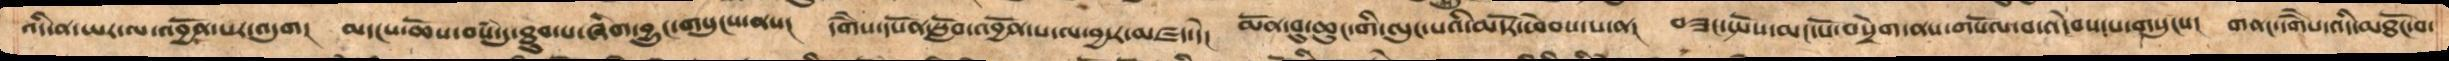འདི་ན་ཡར་ལ་འབྱོན་པར་འདུག།  མདངས་ཆོས་བསཾ་དུ་ཐུབ་པ་ཞིག་བྱུང་གསུངས་ནས།  དགཻས་དཔོན་སློབ་འབྱོན་པ་ལ་བྱ་ར་མཛད་དེ།   མོན་བུ་ཆུང་གི་ལུང་པའི་མདོར་ཕེབས་པ་ན།  བཟང་སྤོས་མང་པོ་བསྲེག་ནས་གསོལ་བ་འདེབས་པ་གསུངས། གནང་དགཻས་འདི་མཐོང་བ་
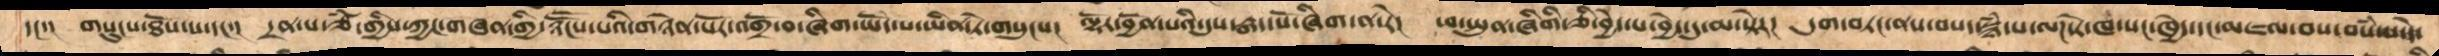དང་།  གསུངས་ཐོས་པ་དང་།  དྲན་པ་ཙཾ་གྱིས་ཀྱང་གཞན་གྱི་ཉཽངས་པའི་གཉེན་པོར་འགྲོ་བ་ཞིག་ཡོད་པ་ཡིན་ཏེ་གསུངས།   ལྷོར་བྱོན་པའི་དུས་རྒན་པོ་ཞིག་ན་རེ།  ཕ་སྤུན་ཞིགི་ཅི་བྱེད་པ་བྱེད་དུ་མ་སྟེར།  དུག་བཏང་ནས་བསད་སྙཾ་པ་ལཌ་ཏེ་ཁ་སང་ཁྱེད་དང་མཇལ་བས་བསཾ་པ་དེ་
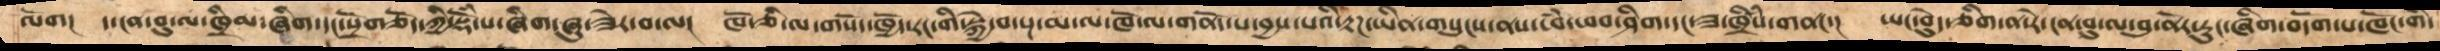ལོག།  ད་ངན་བུ་ལ་ཁྲིམ་ཞིག་དང་སྲོགཅོད་ཀྱི་སྡོཾ་པ་ཞིག་ཞུ་ཟེར་བ་ལ།  ཁོ་ཅི་ལ་གསོད་ཁྱོད་རང་གི་སྐྱེ་བ་སྔ་མ་ལ་ཁོ་ལ་གནོད་པ་བྱས་པའི་རྟཌ་ཡིན་གསུངས་ནས་ཕཾ་ཕབ་ཤིག་དང་ཟ་ཁྲིསཾ་གནང་།  ཡང་བེུད་ཅིག་ན་རེ་ངན་བུ་ལ་བུ་ནོར་རུང་ཞིག་བདོག་པ་ཁོང་གི་
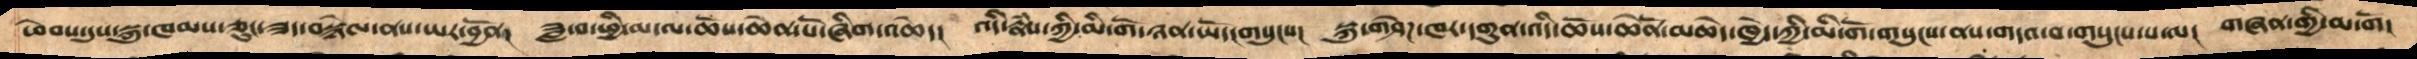ཕེབས་དུས་སྐུ་ཁམས་ཅུང་ཟད་བསྙེལ་ནས་ཡར་བྱོན།   ཟླ་བ་ཕྱི་མ་ལ་ཆོས་ཆེན་པོ་ཞིག་འཆེད།  འདི་རྣཾས་ཀྱི་མི་གོ་ཉན་ཡོད་གསུངས།  སྐུ་གཤེཌ་ཁར་དགུན་འདི་ཆོས་ཆེནོ་མཆེད་ཁྱེད་ཀྱི་མི་གོ་གསུངས་ནས་གདའ་བ་གསུངས་པ་ལ།  གཞན་གྱི་མ་གོ་
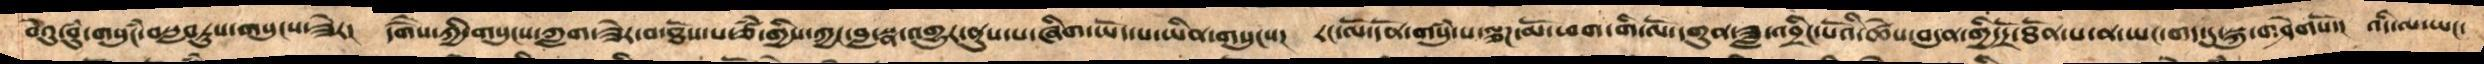བེའུ་བུཾ་གསུངཾབསླབཏུས་གསུངས་ཟེར།  དགཻས་ཀྱིས་གསུང་ཀླག་ཟེར་བ་ཐོས་པ་ཙཾ་གྱིས་ཀྱང་བླ་སྣ་འགྱུར་ནུས་པ་ཞིག་ཡོད་པ་ཡིན་གསུངས། རང་ལོ་དོན་གསུཾ་པ་ལྕཌ་མོ་ཕག་གི་ལོ་དགུན་ཟླ་འབྲིང་པོའི་ཚེས་བདུན་གྱི་དྲོ་ཐོན་པ་ན་ཡང་གད་དུ་སྐུ་གཤེགསོ།  འདི་ལ་ཡང་
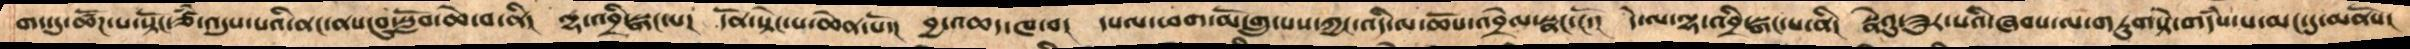གང་དུ་ཚོཌ་པ་སྟོང་ཙཾ་འདུས་པའི་ནང་ནས་བུ་སློབ་ཆེ་བ་ནི།  ལྷ་འབྲི་སྒང་པ།  དོན་སྟོང་པ་ཆེན་པོ་།  བྱ་འཆད་ཁ་བ།  དཔལ་ཕག་མོ་གྲུ་པས་ཀྱང་འདི་ལ་ཆོས་འབྲེལ་སྣང་ངོ་།  དེ་ལ་ལྷ་འབྲི་སྒང་པ་ནི།  སྣེའུ་ཟུར་པའི་ཞབས་ལ་གཏུགསྟེ་གདཾས་པ་མང་དུ་མནོས།
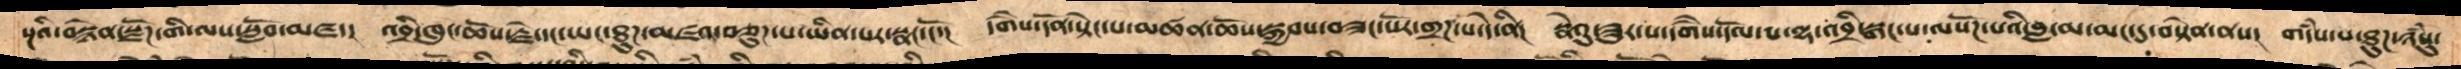སྔའི་བསྙེན་སྫོཌ་གི་ལས་སློབ་མཛད།  འབྲི་ཁུང་ཆོས་རྗེ་དང་ཡང་ཐུཌ་མཛའ་བཅུཌ་པ་ཡིན་པར་སྣང་ངོ་།  དགཻས་དོན་སྟེང་པ་མཚན་ཆོས་སྐྱབས་བཟང་པོར་གྲཌ་པ་དེ་ནི།  སྣེའུ་ཟུར་པ་དགཻས་དོལ་པ་ལྷ་འབྲི་སྒང་པ་ལསོཌ་པའི་བླ་མ་མང་དུ་བསྟེན་ནས།  གདཾས་པ་ཐུཌ་ཉཾསུ་
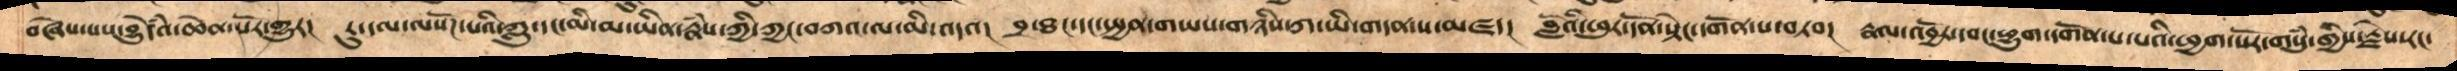བཞེས་པས་བྱུདེཾའ་ཆེན་པོར་གྱུར།  རུ་དལ་ལསོཌ་པའི་ཀླུ་དང་མི་མ་ཡིན་རྣཾས་ཀྱི་ཀྱང་བཀའ་ལས་མི་འདའ།  བྲ་ཐང་དང་སྤྱན་གཡས་གཉིས་ཀ་ཡི་གདན་ས་མཛད།  བློའི་ཕུར་དོན་སྟེང་གི་དགོན་པ་བཏབ།  རྣལ་འབྱོར་གྱི་དབང་ཕྱུག་དགོན་པ་པའི་ཕྱག་སོར་གསུཾ་གྱིས་རྗེས་རང་
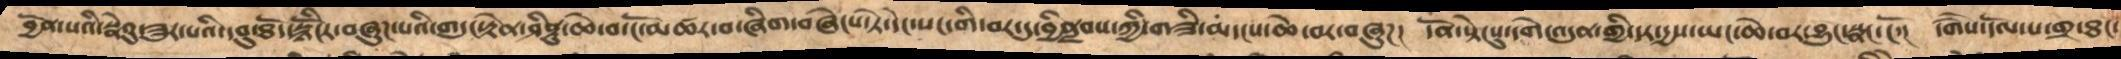བྱོན་པའི་སྣེའུ་ཟུར་པའི་དབུ་ཐོད་སྙོངེར་བཞུཌ་བའི་གདུང་རྟེན་ཤིནྟུ་ཆེ་བ་ངོ་མཚར་བ་ཞིག་བཞེངས་ཏེ་དེང་སང་གི་བར་དུ་བྱིནླབས་ཀྱི་གཟི་མདངས་ཆེ་བར་བཞུཌ།  དོན་སྟེང་དུ་དགེ་འདུན་གྱི་དར་དྱས་ཡང་ཆེ་བར་བྱུང་སྣང་ངོ་།  དགཻས་དོལ་པ་གྲ་ཐང་
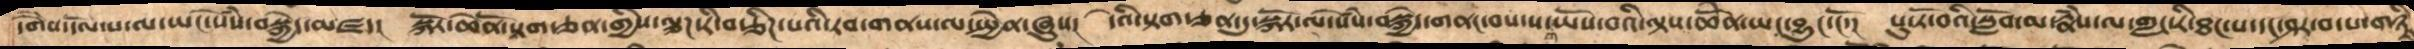དགཻས་དོལ་པ་ལ་ཡང་སེཾས་བསྐྱེད་མཛད།  སྐོར་ཆེོན་སྟག་ཅན་གྱི་ལྕཌ་རི་བརྩིཌ་པའི་རབ་གནས་ལ་སྤྱེན་ཞུས།  དེའི་སྟག་ཅན་དུ་སྐོར་ལ་སེཾས་བསྐྱེད་གནང་བས་ས་གཡོས་བའི་ལྟས་ཆེནོ་ཡང་བྱུང་ངོ་།  པུ་ཏོ་བའི་སློབ་མ་རྣཾས་ལ་གླང་རི་ཐང་པ་དང་ཤར་བ་པ་གཉིས་
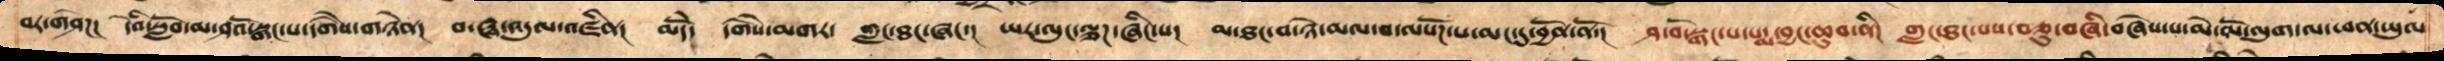བར་གཤེཌ།  དེའི་སློབ་མ་ཤའོ་སྒང་པདགཻས་གཉེན།  བ་ཝ་འདུལ་འཛིན།  མདོ་ེ  དགཻས་མགར།   གླང་ཐང་ཞང་།  ཡར་ལུང་ལྕཌ་ཞིང་པ།  མ་ཐང་བ་ཉེ་མལ་བ་ལསོཌ་པ་མང་དུ་བྱོན་ནོ།  ཤ་བོ་སྒང་པ་པདྨ་བྱང་ཆུབ་ནི།   གླང་ཐང་པས་བཅུ་བཞི་བཞེས་པ་མེ་མོ་ལུག་ལ་འཕན་ཡུལ
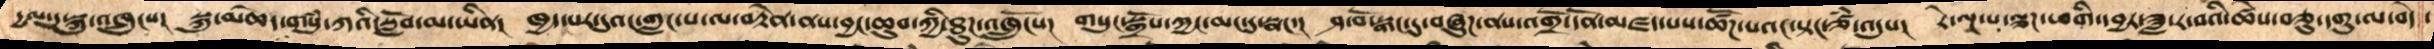དྱལ་དུ་སྐུ་འཁྲུངས།  སྐུ་མཆེད་གསུཾ་ཀའི་སློབ་མ་ཡིན།  ཁྱད་པར་དུའང་གླང་པ་ལ་བརྟེན་ནས་བྱང་ཆུབ་ཀྱི་ཐུཌའཁྲུངསོ།   གསུང་སྒྲོས་ཀྱང་མང་དུ་སྣང་།  ཤ་བོ་སྒང་དུ་བཞུཌ་ནས་འགྲོ་དོན་མཛད་པས་ཚོཌ་པའང་སྟང་ཙཾ་འདུས།  རེ་ལྔ་པ་ལྕཌ་ཕགི་དབྱར་ཟླ་ར་བའི་ཚེས་བཅུ་དགུ་ལ་བདེ
